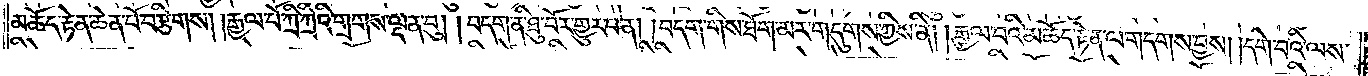མཆོད་རྟེན་ཆེན་པོ་བརྩིགས། །རྒྱལ་པོ་ཀྲི་ཀྲིའི་གྲགས་ལྡན་བུ། །བདག་ནི་ཐུ་བོར་གྱུར་པ་ན། །བདག་གིས་ཐོག་མར་གདུགས་ཀྱིས་ནི། །རྒྱལ་བའི་མཆོད་རྟེན་ལ་གདགས་བྱས། །དགེ་བའི་ལས་
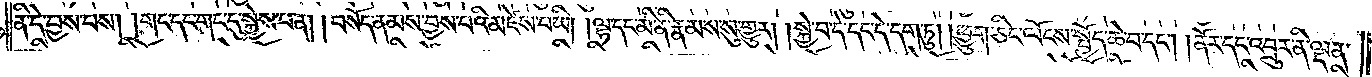ནི་དེ་བྱས་པས། །གང་དང་གང་དུ་སྐྱེས་པ་ན། །བསོད་ནམས་བྱས་པའི་མཛེས་པ་ཡི། །ལྷ་དང་མི་ནི་རྣམས་སུ་གྱུར། །སྐྱེ་བ་དེ་དང་དེ་དག་ཏུ། །ཕྱུག་ཅིང་ལོངས་སྤྱོད་ཆེ་བ་དང༌། །ནོར་དང་འབྲུར་ནི་ལྡན་
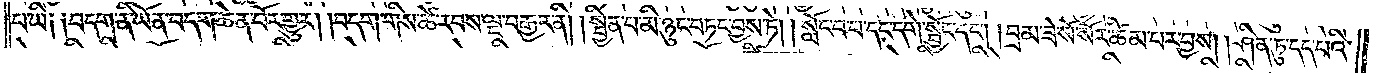པ་ཡི༑ ༑བདག་ནི་ཡོན་བདག་ཆེན་པོར་གྱུར། །བདག་གིས་ཚེ་རབས་ལྔ་བརྒྱར་ནི། །སྦྱིན་པ་མི་ཉུང་བཏང་བྱས་ཏེ། །སློང་བ་པ་དང་དགེ་སྦྱོང་དང༌། །བྲམ་ཟེ་སོ་སོར་ཚིམ་པར་བྱས། །ཤིན་ཏུ་དད་པའི་
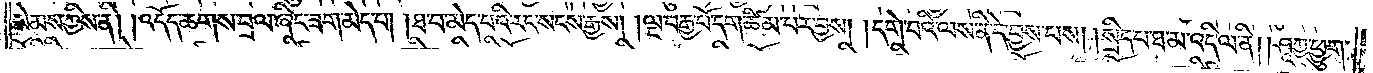སེམས་ཀྱིས་ནི། །འདོད་ཆགས་བྲལ་ཞིང་ཟག་མེད་པ། །ཐ་བ་མེད་པའི་རང་སངས་རྒྱས། །ལྔ་བརྒྱ་པོ་དག་ཚིམ་པར་བྱས། །དགེ་བའི་ལས་ནི་དེ་བྱས་པས། །སྲིད་པ་ཐ་མ་འདི་ལ་ནི། །ཤཱཀྱ་ཕྱུག་
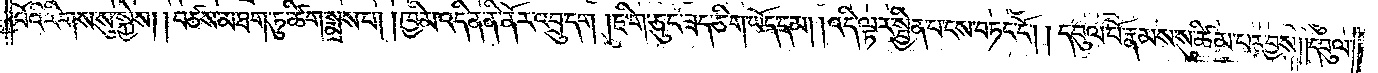པོའི་རིགས་སུ་སྐྱེས། །བཙས་མ་ཐག་ཏུ་ཚིག་སྨྲས་པ། །ཁྱིམ་འདི་ན་ནི་ནོར་འབྲུ་དག །ཇི་ག་ཅུང་ཟད་ཅིག་ཡོད་དམ། འདི་ལྟར་སྦྱིན་པ་ངས་བཏང་ངོ༌། །དབུལ་པོ་རྣམས་སུ་ཚིམ་པར་བྱས། །དབུལ་
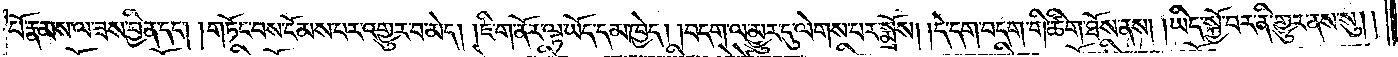པོ་རྣམས་ལ་ཟས་བྱིན་དང༌། །གཏོང་བས་ངོམས་པར་འགྱུར་བ་མེད། །ཇི་ག་ནོར་ལྟ་ཡོད་དམ་ཁྱེད། །བདག་ལ་མྱུར་དུ་ལེགས་པར་སྨྲོས། །དེ་དག་བདག་གི་ཚིག་ཐོས་ནས། །ཡིད་སྐྱོ་བར་ནི་གྱུར་ནས་སུ། །
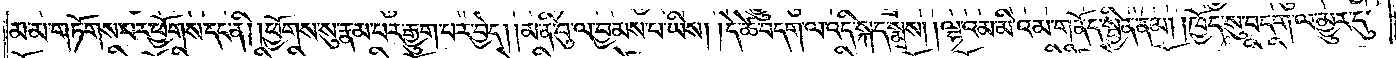མ་མ་གཏོགས་པར་ཕྱོགས་དང་ནི། །ཕྱོགས་སུ་རྣམ་པར་རྒྱུག་པར་བྱེད། །མ་ནི་བུ་ལ་བྱམས་པ་ཡིས། །དེ་ཚེ་བདག་ལ་འདི་སྐད་སྨྲས། །ལྷའམ་མི་འམ་གནོད་སྦྱིན་ནམ། །ཁྱོད་སུ་བདག་ལ་མྱུར་དུ་
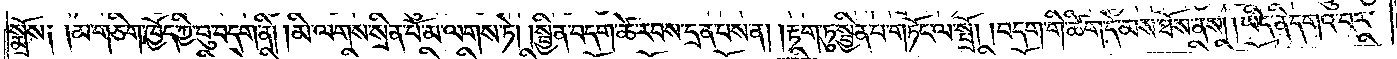སྨྲོས༑ །མ་གཅིག་ཁྱོད་ཀྱི་བུ་བདག་ནི། །མི་ལགས་སྲིན་པོ་མ་ལགས་ཏེ། །སྦྱིན་བདག་ཚེ་རབས་དྲན་པས་ན། །རྟག་ཏུ་སྦྱིན་པ་གཏོང་ལ་སྤྲོ། །བདག་གི་ཚིག་དེ་མས་ཐོས་ནས། །ཡིད་ནི་དགའ་བར་
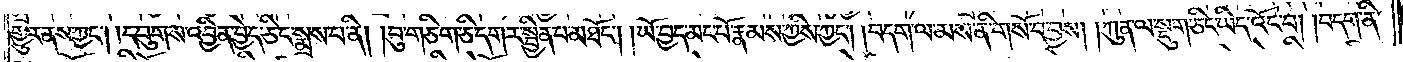གྱུར་ནས་ཀྱང༌། །དབུགས་འབྱིན་བྱེད་ཅིང་སྨྲས་པ་ནི། །བུ་གཅིག་ཅི་དགར་སྦྱིན་པ་མཐོང༌། །ཡོ་བྱད་མང་པོ་རྣམས་ཀྱིས་ཀྱང༌། །བདག་ལ་མས་ནི་གསོ་བ་བྱས། །ཀུན་ལ་སྡུག་ཅིང་ཡོད་འོང་བ། །བདག་ནི་
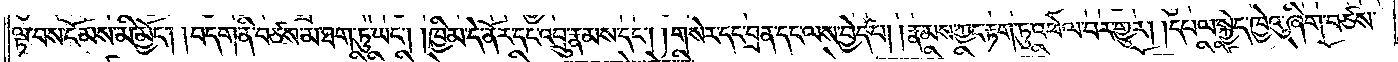ལྟ་བས་ངོམས་མི་མྱོང༌། །བདག་ནི་བཙས་མ་ཐག་ཏུ་ཡང༌། །ཁྱིམ་དེ་ནོར་དང་འབྲུ་རྣམས་དང༌། །གསེར་དང་བྲན་དང་ལས་བྱེད་པ། །རྣམས་ཀྱང་རྟག་ཏུ་འཕེལ་བར་གྱུར། །དཔལ་སྐྱེད་ཁྱེའུ་ཞིག་བཙས་
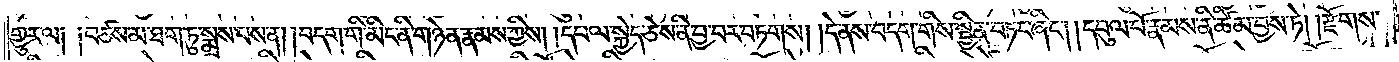གྱུར་ལ༑ ༑བཙས་མ་ཐག་ཏུ་སྨྲས་པས་ན། །བདག་གི་མིང་ནི་གཉེན་རྣམས་ཀྱིས། །དཔལ་སྐྱེད་ཅེས་ནི་བྱ་བར་བཏགས། །དེ་ནས་བདག་གིས་སྦྱིན་བཏང་ཞིང༌། །དབུལ་པོ་རྣམས་ནི་ཚིམ་བྱས་ཏེ། །རྫོགས་
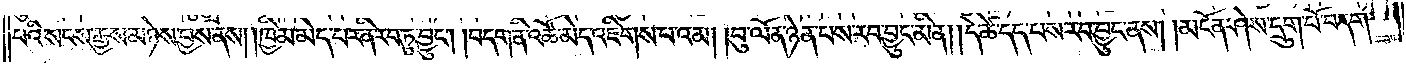པའི་སངས་རྒྱས་མཉེས་བྱས་ནས། །ཁྱིམ་མེད་པར་ནི་རབ་ཏུ་བྱུང༌། །བདག་ནི་འཚོ་མེད་འཇིགས་པའམ། །བུ་ལོན་ཉེན་པས་རབ་བྱུང་མིན། །དེ་ཚེ་དད་པས་རབ་བྱུང་ནས། །མངོན་ཤེས་དྲུག་པོ་བདག་
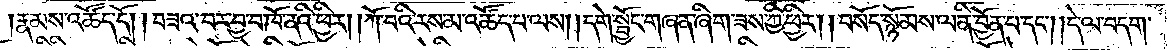རྣམས་འཚོད་དོ། །བཟའ་བར་བྱ་བ་ཁོ་ནའི་ཕྱིར། །ཀོ་བའི་རས་མ་འཚོད་པ་ལས། །དགེ་སྦྱོང་གཞན་ཞིག་ཟས་ཀྱི་ཕྱིར། །བསོད་སྙོམས་ལ་ནི་བྱོན་པ་དང༌། །དེ་ལ་བདག་
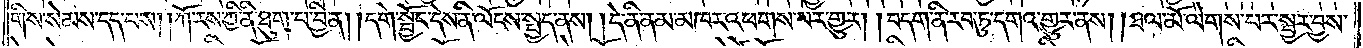གིས་སེམས་དད་པས། །ཀོ་རས་ཀྱི་ནི་ཐུག་པ་བྱིན། །དགེ་སྦྱོང་དེས་ནི་ལོངས་སྤྱད་ནས། །དེ་ནི་ནམ་མཁར་འཕགས་པར་གྱུར། །བདག་ནི་རབ་ཏུ་དགའ་གྱུར་ནས། །ཐལ་མོ་ལེགས་པར་སྦྱར་བྱས་
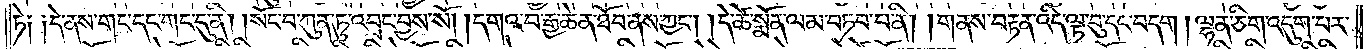ཏེ༑ ༑དེ་ནས་གང་དང་གང་དུ་ནི། །སོང་བ་ཀུན་ཏུ་འབྲང་བྱས་སོ། །དགའ་བ་རྒྱ་ཆེན་ཐོབ་ནས་ཀྱང༌། །དེ་ཚེ་སྨོན་ལམ་བཏབ་པ་ནི། །གནས་བརྟན་འདི་ལྟ་བུ་དང་བདག། ལྷན་ཅིག་འདུག་པར་
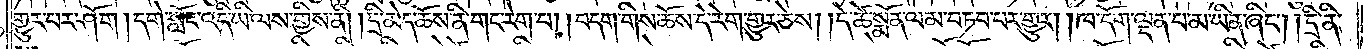གྱུར་པར་ཤོག །དགེ་སློང་འདི་ཡི་ལས་གྱིས་ནི། །དྲི་མེད་ཆོས་ནི་གང་རེག་པ། །བདག་གིས་ཆོས་དེ་རེག་གྱུར་ཅེས། །དེ་ཚེ་སྨོན་ལམ་བཏབ་པར་གྱུར། །ཁ་དོག་ལྡན་པ་མ་ཡིན་ཞིང༌། །དྲི་ནི་
